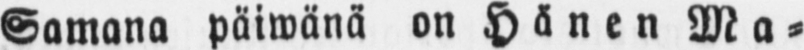Samana päiwänä on Hänen Ma-
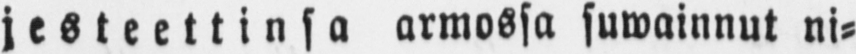jesteettinsa armossa suwainnut ni-
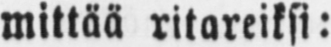mittää ritareiksi:
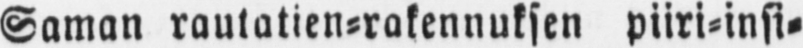Saman rautatien-rakennuksen piiri-insi-
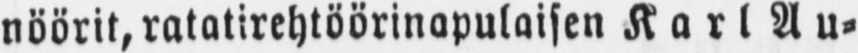nöörit, ratatirehtöörinapulaisen Karl Au-
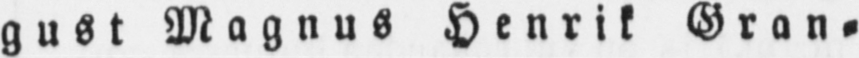gust Magnus Henrik Gran-
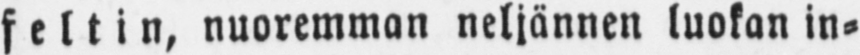feltin, nuoremman neljännen luokan in-
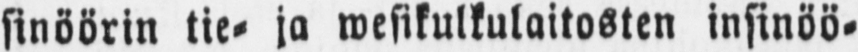sinöörin tie- ja mesikulkulaitosten insinöö-
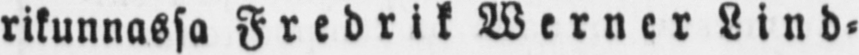rikunnassa Fredrik Werner Lind-
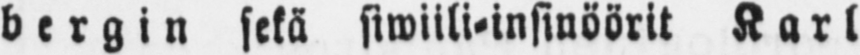bergin sekä siwiili-insinöörit Karl
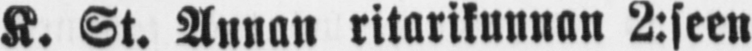K. St. Annan ritarikunnan 2:seen
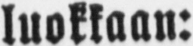luokkaan:
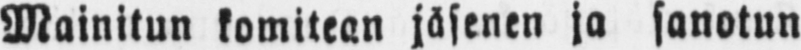Mainitun komitean jäsenen ja sanotun
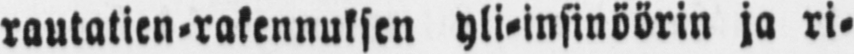rautatien-rakennuksen yli-insinöörin ja ri-
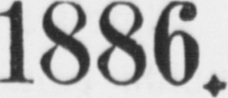1886.
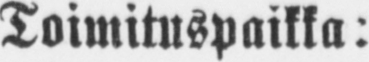Toimituspaikka:
